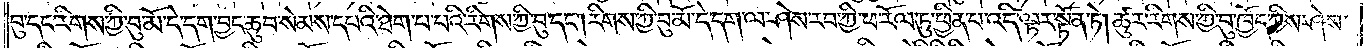བུ་དང་རིགས་ཀྱི་བུ་མོ་དེ་དག་བྱང་ཆུབ་སེམས་དཔའི་ཐེག་པ་པའི་རིགས་ཀྱི་བུ་དང༌། རིགས་ཀྱི་བུ་མོ་དེ་དག་ལ་ཤེས་རབ་ཀྱི་ཕ་རོལ་ཏུ་ཕྱིན་པ་འདི་ལྟར་སྟོན་ཏེ། ཚུར་རིགས་ཀྱི་བུ་ཁྱོད་ཀྱིས་ཤེས་
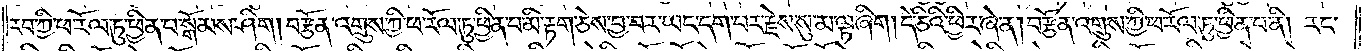རབ་ཀྱི་ཕ་རོལ་ཏུ་ཕྱིན་པ་སྒོམས་ཤིག །བརྩོན་འགྲུས་ཀྱི་ཕ་རོལ་ཏུ་ཕྱིན་པ་མི་རྟག་ཅེས་བྱ་བར་ཡང་དག་པར་རྗེས་སུ་མ་ལྟ་ཞིག། དེ་ཅིའི་ཕྱིར་ཞེ་ན། བརྩོན་འགྲུས་ཀྱི་ཕ་རོལ་ཏུ་ཕྱིན་པ་ནི། རང་
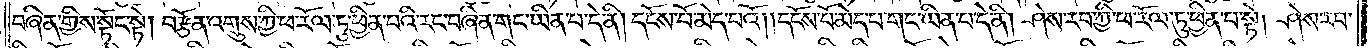བཞིན་གྱིས་སྟོང་སྟེ། བརྩོན་འགྲུས་ཀྱི་ཕ་རོལ་ཏུ་ཕྱིན་པའི་རང་བཞིན་གང་ཡིན་པ་དེ་ནི། དངོས་པོ་མེད་པའོ། །དངོས་པོ་མེད་པ་གང་ཡིན་པ་དེ་ནི། ཤེས་རབ་ཀྱི་ཕ་རོལ་ཏུ་ཕྱིན་པ་སྟེ། ཤེས་རབ་
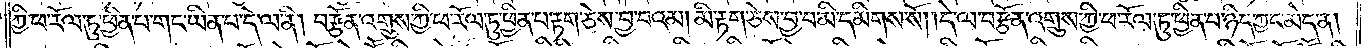ཀྱི་ཕ་རོལ་ཏུ་ཕྱིན་པ་གང་ཡིན་པ་དེ་ལ་ནི། བརྩོན་འགྲུས་ཀྱི་ཕ་རོལ་ཏུ་ཕྱིན་པ་རྟག་ཅེས་བྱ་བའམ། མི་རྟག་ཅེས་བྱ་བ་མི་དམིགས་སོ། །དེ་ལ་བརྩོན་འགྲུས་ཀྱི་ཕ་རོལ་ཏུ་ཕྱིན་པ་ཉིད་ཀྱང་མེད་ན།
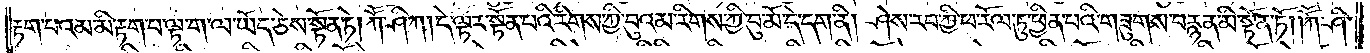རྟག་པའམ་མི་རྟག་པ་ལྟ་ག་ལ་ཡོད་ཅེས་སྟོན་ཏེ། ཀཽ་ཤི་ཀ། དེ་ལྟར་སྟོན་པའི་རིགས་ཀྱི་བུའམ་རིགས་ཀྱི་བུ་མོ་དེ་དག་ནི། ཤེས་རབ་ཀྱི་ཕ་རོལ་ཏུ་ཕྱིན་པའི་གཟུགས་བརྙན་མི་སྟོན་ཏོ། །ཀཽ་ཤི་
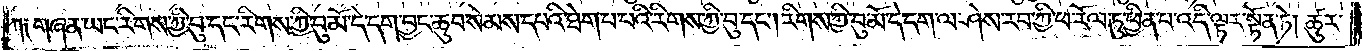ཀ༑ གཞན་ཡང་རིགས་ཀྱི་བུ་དང་རིགས་ཀྱི་བུ་མོ་དེ་དག་བྱང་ཆུབ་སེམས་དཔའི་ཐེག་པ་པའི་རིགས་ཀྱི་བུ་དང༌། རིགས་ཀྱི་བུ་མོ་དེ་དག་ལ་ཤེས་རབ་ཀྱི་ཕ་རོལ་ཏུ་ཕྱིན་པ་འདི་ལྟར་སྟོན་ཏེ། ཚུར་
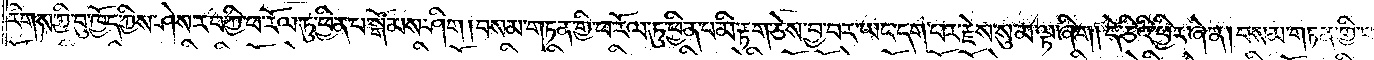རིགས་ཀྱི་བུ་ཁྱོད་ཀྱིས་ཤེས་རབ་ཀྱི་ཕ་རོལ་ཏུ་ཕྱིན་པ་སྒོམས་ཤིག །བསམ་གཏན་གྱི་ཕ་རོལ་ཏུ་ཕྱིན་པ་མི་རྟག་ཅེས་བྱ་བར་ཡང་དག་པར་རྗེས་སུ་མ་ལྟ་ཞིག །དེ་ཅིའི་ཕྱིར་ཞེ་ན། བསམ་གཏན་གྱི་ཕ་
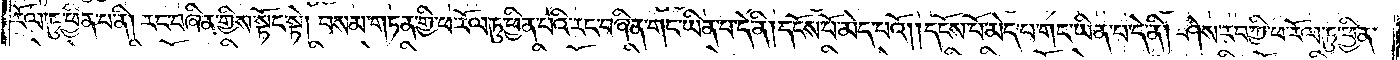རོལ་ཏུ་ཕྱིན་པ་ནི། རང་བཞིན་གྱིས་སྟོང་སྟེ། བསམ་གཏན་གྱི་ཕ་རོལ་ཏུ་ཕྱིན་པའི་རང་བཞིན་གང་ཡིན་པ་དེ་ནི། དངོས་པོ་མེད་པའོ། །དངོས་པོ་མེད་པ་གང་ཡིན་པ་དེ་ནི། ཤེས་རབ་ཀྱི་ཕ་རོལ་ཏུ་ཕྱིན་
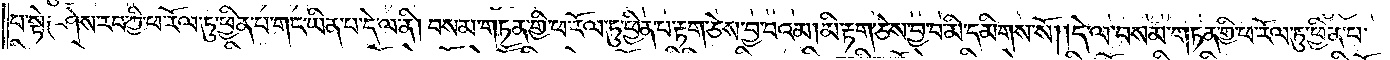པ་སྟེ༑ ཤེས་རབ་ཀྱི་ཕ་རོལ་ཏུ་ཕྱིན་པ་གང་ཡིན་པ་དེ་ལ་ནི། བསམ་གཏན་གྱི་ཕ་རོལ་ཏུ་ཕྱིན་པ་རྟག་ཅེས་བྱ་བའམ། མི་རྟག་ཅེས་བྱ་བ་མི་དམིགས་སོ། །དེ་ལ་བསམ་གཏན་གྱི་ཕ་རོལ་ཏུ་ཕྱིན་པ་
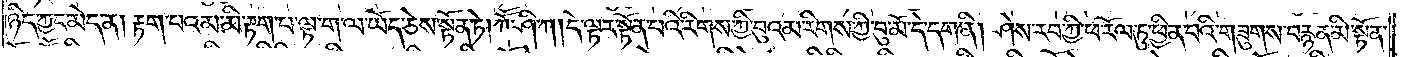ཉིད་ཀྱང་མེད་ན། རྟག་པའམ་མི་རྟག་པ་ལྟག་ལ་ཡོད་ཅེས་སྟོན་ཏེ། ཀཽ་ཤི་ཀ། དེ་ལྟར་སྟོན་པའི་རིགས་ཀྱི་བུའམ་རིགས་ཀྱི་བུ་མོ་དེ་དག་ནི། ཤེས་རབ་ཀྱི་ཕ་རོལ་ཏུ་ཕྱིན་པའི་གཟུགས་བརྙན་མི་སྟོན་
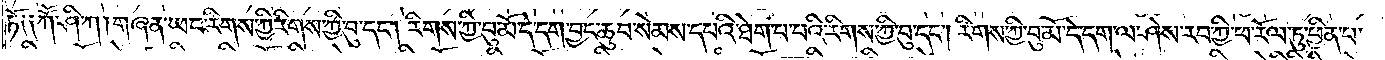ཏོ༑ ༑ཀཽ་ཤི་ཀ། གཞན་ཡང་རིགས་ཀྱི་བུ་དང༌། རིགས་ཀྱི་བུ་མོ་དེ་དག་བྱང་ཆུབ་སེམས་དཔའི་ཐེག་པ་པའི་རིགས་ཀྱི་བུ་དང༌། རིགས་ཀྱི་བུ་མོ་དེ་དག་ལ་ཤེས་རབ་ཀྱི་ཕ་རོལ་ཏུ་ཕྱིན་པ་
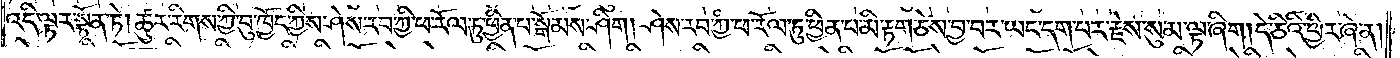འདི་ལྟར་སྟོན་ཏེ། ཚུར་རིགས་ཀྱི་བུ་ཁྱོད་ཀྱིས་ཤེས་རབ་ཀྱི་ཕ་རོལ་ཏུ་ཕྱིན་པ་སྒོམས་ཤིག །ཤེས་རབ་ཀྱི་ཕ་རོལ་ཏུ་ཕྱིན་པ་མི་རྟག་ཅེས་བྱ་བར་ཡང་དག་པར་རྗེས་སུ་མ་ལྟ་ཞིག །དེ་ཅིའི་ཕྱིར་ཞེ་ན།
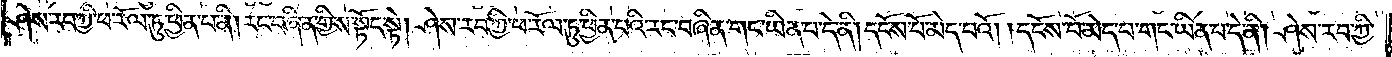ཤེས་རབ་ཀྱི་ཕ་རོལ་ཏུ་ཕྱིན་པ་ནི། རང་བཞིན་གྱིས་སྟོང་སྟེ། ཤེས་རབ་ཀྱི་ཕ་རོལ་ཏུ་ཕྱིན་པའི་རང་བཞིན་གང་ཡིན་པ་དེ་ནི། དངོས་པོ་མེད་པའོ། །དངོས་པོ་མེད་པ་གང་ཡིན་པ་དེ་ནི། ཤེས་རབ་ཀྱི་
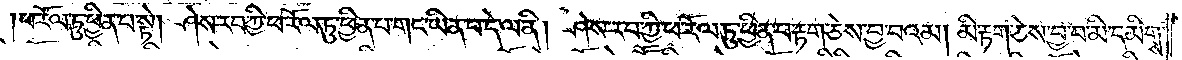ཕ་རོལ་ཏུ་ཕྱིན་པ་སྟེ། ཤེས་རབ་ཀྱི་ཕ་རོལ་ཏུ་ཕྱིན་པ་གང་ཡིན་པ་དེ་ལ་ནི། ཤེས་རབ་ཀྱི་ཕ་རོལ་ཏུ་ཕྱིན་པ་རྟག་ཅེས་བྱ་བའམ། མི་རྟག་ཅེས་བྱ་བ་མི་དམིགས་
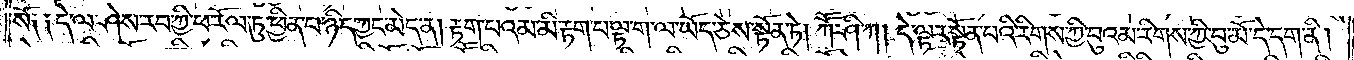སོ༑ ༑དེ་ལ་ཤེས་རབ་ཀྱི་ཕ་རོལ་ཏུ་ཕྱིན་པ་ཉིད་ཀྱང་མེད་ན། རྟག་པའམ་མི་རྟག་པ་ལྟ་ག་ལ་ཡོད་ཅེས་སྟོན་ཏེ། ཀཽ་ཤི་ཀ། དེ་ལྟར་སྟོན་པའི་རིགས་ཀྱི་བུའམ་རིགས་ཀྱི་བུ་མོ་དེ་དག་ནི།
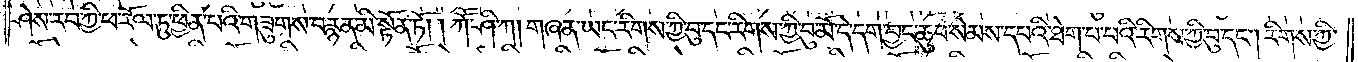ཤེས་རབ་ཀྱི་ཕ་རོལ་ཏུ་ཕྱིན་པའི་གཟུགས་བརྙན་མི་སྟོན་ཏོ། །ཀཽ་ཤི་ཀ། གཞན་ཡང་རིགས་ཀྱི་བུ་དང་རིགས་ཀྱི་བུ་མོ་དེ་དག་བྱང་ཆུབ་སེམས་དཔའི་ཐེག་པ་པའི་རིགས་ཀྱི་བུ་དང༌། རིགས་ཀྱི་
